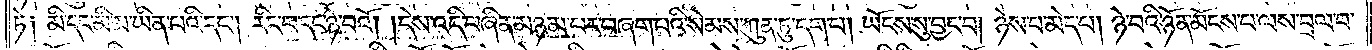ཏེ། མི་དང་མི་མ་ཡིན་པའི་དང༌། རིང་བ་དང་ཉེ་བའོ། །དེས་འདི་བཞིན་མཉམ་པར་བཞག་པའི་སེམས་ཀུན་ཏུ་དག་པ། ཡོངས་སུ་བྱང་བ། ཉེས་པ་མེད་པ། ཉེ་བའི་ཉོན་མོངས་པ་ལས་བྲལ་བ་
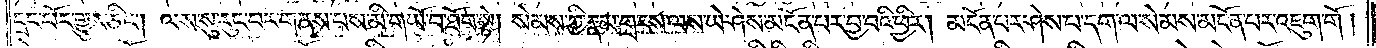དྲང་པོར་གྱུར་ཅིང༌། ལས་སུ་རུང་བར་གནས་པས་མི་གཡོ་བ་ཐོབ་སྟེ། སེམས་ཀྱི་རྣམ་གྲངས་ལས་ཡེ་ཤེས་མངོན་པར་བྱ་བའི་ཕྱིར། མངོན་པར་ཤེས་པ་དག་ལ་སེམས་མངོན་པར་འཇུག་གོ།
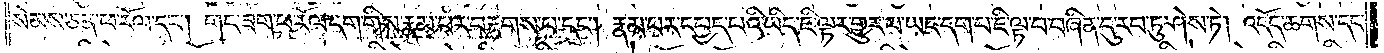སེམས་ཅན་ཕ་རོལ་དང༌། གང་ཟག་ཕ་རོལ་དག་གིས་རྣམ་པར་བརྟགས་པ་དང༌། རྣམ་པར་དཔྱད་པའི་ཡིད་ཇི་ལྟར་གྱུར་པ་ཡང་དག་པ་ཇི་ལྟ་བ་བཞིན་དུ་རབ་ཏུ་ཤེས་ཏེ། འདོད་ཆགས་དང་
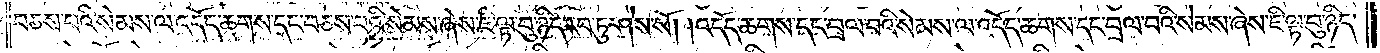བཅས་པའི་སེམས་ལ་འདོད་ཆགས་དང་བཅས་པའི་སེམས་ཞེས་ཇི་ལྟ་བུ་ཉིད་རབ་ཏུ་ཤེས་སོ། །འདོད་ཆགས་དང་བྲལ་བའི་སེམས་ལ་འདོད་ཆགས་དང་བྲལ་བའི་སེམས་ཞེས་ཇི་ལྟ་བུ་ཉིད་
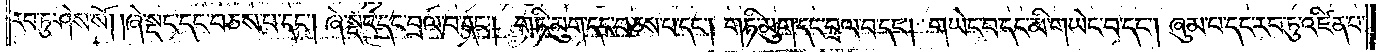རབ་ཏུ་ཤེས་སོ། །ཞེ་སྡང་དང་བཅས་པ་དང༌། ཞེ་སྡང་དང་བྲལ་བ་དང༌། གཏི་མུག་དང་བཅས་པ་དང༌། གཏི་མུག་དང་བྲལ་བ་དང༌། གཡེང་བ་དང་མི་གཡེང་བ་དང༌། ཞུམ་པ་དང་རབ་ཏུ་འཛིན་པ་
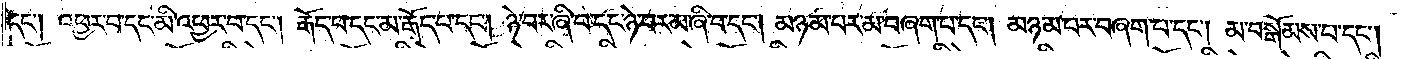དང༌། འཕྱར་བ་དང་མི་འཕྱར་བ་དང༌། རྒོད་པ་དང་མ་རྒོད་པ་དང༌། ཉེ་བར་ཞི་བ་དང་ཉེ་བར་མ་ཞི་བ་དང༌། མཉམ་པར་མ་བཞག་པ་དང༌། མཉམ་པར་བཞག་པ་དང༌། མ་བསྒོམས་པ་དང༌།
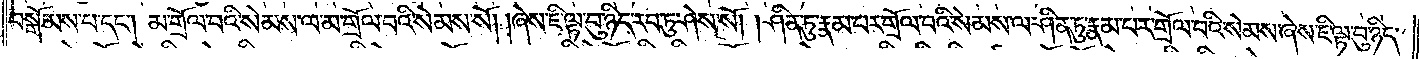བསྒོམས་པ་དང༌། མ་གྲོལ་བའི་སེམས་ལ་མ་གྲོལ་བའི་སེམས་སོ། །ཞེས་ཇི་ལྟ་བུ་ཉིད་རབ་ཏུ་ཤེས་སོ། །ཤིན་ཏུ་རྣམ་པར་གྲོལ་བའི་སེམས་ལ་ཤིན་ཏུ་རྣམ་པར་གྲོལ་བའི་སེམས་ཞེས་ཇི་ལྟ་བུ་ཉིད་
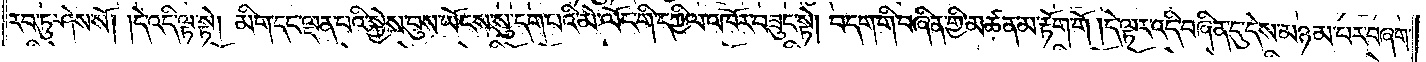རབ་ཏུ་ཤེས་སོ། །དེ་འདི་ལྟ་སྟེ། མིག་དང་ལྡན་པའི་སྐྱེས་བུས་ཡོངས་སུ་དག་པའི་མེ་ལོང་གི་དཀྱིལ་འཁོར་བཟུང་སྟེ། བདག་གི་བཞིན་གྱི་མཚན་མ་རྟོག་གོ །དེ་ལྟར་འདི་བཞིན་དུ་དེས་མཉམ་པར་བཞག་
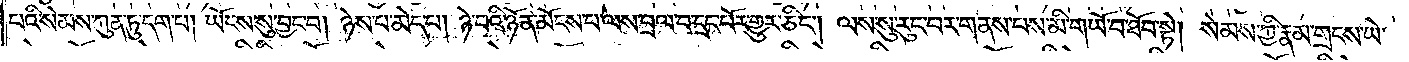པའི་སེམས་ཀུན་ཏུ་དག་པ། ཡོངས་སུ་བྱང་བ། ཉེས་པ་མེད་པ། ཉེ་བའི་ཉོན་མོངས་པ་ལས་བྲལ་བ་དྲང་པོར་གྱུར་ཅིང༌། ལས་སུ་རུང་བར་གནས་པས་མི་གཡོ་བ་ཐོབ་སྟེ། སེམས་ཀྱི་རྣམ་གྲངས་ཡེ་
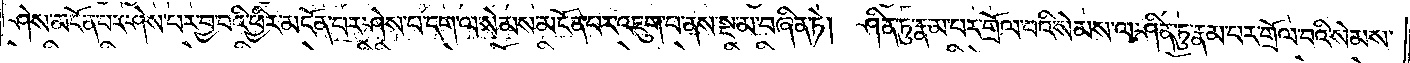ཤེས་མངོན་པར་ཤེས་པར་བྱ་བའི་ཕྱིར་མངོན་པར་ཤེས་པ་དག་ལ་སེམས་མངོན་པར་འཇུག་པ་ནས་སྔ་མ་བཞིན་ཏེ། ཤིན་ཏུ་རྣམ་པར་གྲོལ་བའི་སེམས་ལ་ཤིན་ཏུ་རྣམ་པར་གྲོལ་བའི་སེམས་
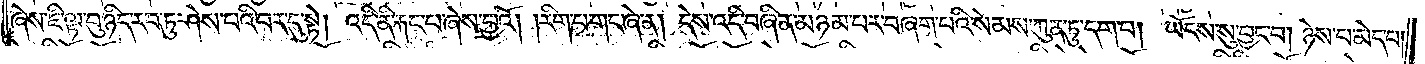ཞེས་ཇི་ལྟ་བུ་ཉིད་རབ་ཏུ་ཤེས་པའི་བར་དུ་སྟེ། འདི་ནི་རྐང་པ་ཞེས་བྱའོ། །རིག་པ་གང་ཞེ་ན། དེས་འདི་བཞིན་མཉམ་པར་བཞག་པའི་སེམས་ཀུན་ཏུ་དག་པ། ཡོངས་སུ་བྱང་བ། ཉེས་པ་མེད་པ།
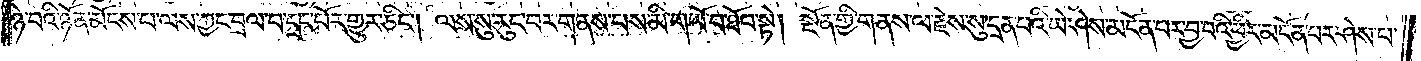ཉེ་བའི་ཉོན་མོངས་པ་ལས་ཀྱང་བྲལ་བ་དྲང་པོར་གྱུར་ཅིང༌། ལས་སུ་རུང་བར་གནས་པས་མི་གཡོ་བ་ཐོབ་སྟེ། སྔོན་གྱི་གནས་ལ་རྗེས་སུ་དྲན་པའི་ཡེ་ཤེས་མངོན་པར་བྱ་བའི་ཕྱིར་མངོན་པར་ཤེས་པ་
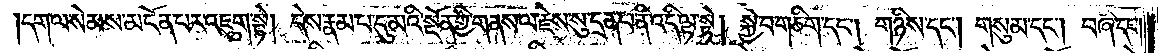དག་ལ་སེམས་མངོན་པར་འཇུག་སྟེ། དེས་རྣམ་པ་དུ་མའི་སྔོན་གྱི་གནས་ལ་རྗེས་སུ་དྲན་པ་ནི་འདི་ལྟ་སྟེ། སྐྱེ་བ་གཅིག་དང༌། གཉིས་དང༌། གསུམ་དང༌། བཞི་དང་
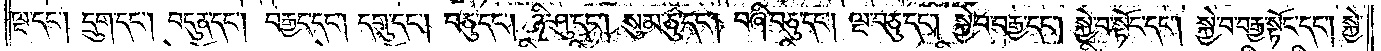ལྔ་དང༌། དྲུག་དང༌། བདུན་དང༌། བརྒྱད་དང༌། དགུ་དང༌། བཅུ་དང༌། ཉི་ཤུ་དང༌། སུམ་ཅུ་དང༌། བཞི་བཅུ་དང༌། ལྔ་བཅུ་དང༌། སྐྱེ་བ་བརྒྱ་དང༌། སྐྱེ་བ་སྟོང་དང༌། སྐྱེ་བ་བརྒྱ་སྟོང་དང༌། སྐྱེ་
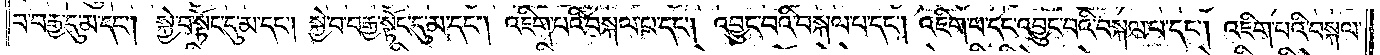བ་བརྒྱ་དུ་མ་དང༌། སྐྱེ་བ་སྟོང་དུ་མ་དང༌། སྐྱེ་བ་བརྒྱ་སྟོང་དུ་མ་དང༌། འཇིག་པའི་བསྐལ་པ་དང༌། འབྱུང་བའི་བསྐལ་པ་དང༌། འཇིག་པ་དང་འབྱུང་བའི་བསྐལ་པ་དང༌། འཇིག་པའི་བསྐལ་
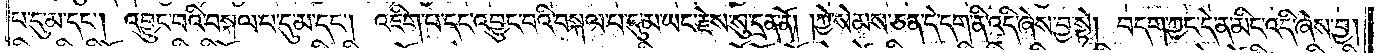པ་དུ་མ་དང༌། འབྱུང་བའི་བསྐལ་པ་དུ་མ་དང༌། འཇིག་པ་དང་འབྱུང་བའི་བསྐལ་པ་དུ་མ་ཡང་རྗེས་སུ་དྲན་ནོ། །ཀྱེ་སེམས་ཅན་དེ་དག་ནི་འདི་ཞེས་བྱ་སྟེ། བདག་ཀྱང་དེ་ན་མིང་འདི་ཞེས་བྱ།
